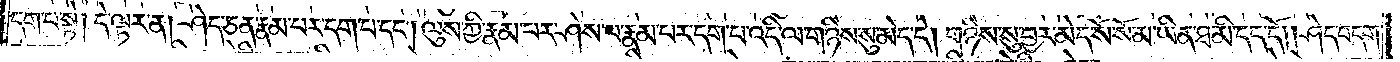དག་པ་སྟེ། དེ་ལྟར་ན། ཤེད་ཅན་རྣམ་པར་དག་པ་དང༌། ལུས་ཀྱི་རྣམ་པར་ཤེས་པ་རྣམ་པར་དག་པ་འདི་ལ་གཉིས་སུ་མེད་དེ། གཉིས་སུ་བྱར་མེད་སོ་སོ་མ་ཡིན་ཐ་མི་དད་དོ། །ཤེད་བདག་
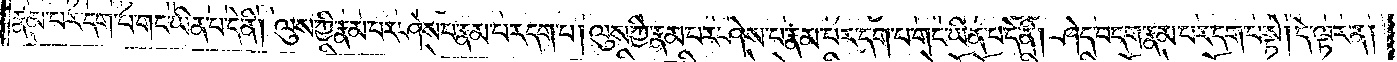རྣམ་པར་དག་པ་གང་ཡིན་པ་དེ་ནི། ལུས་ཀྱི་རྣམ་པར་ཤེས་པ་རྣམ་པར་དག་པ། ལུས་ཀྱི་རྣམ་པར་ཤེས་པ་རྣམ་པར་དག་པ་གང་ཡིན་པ་དེ་ནི། ཤེད་བདག་རྣམ་པར་དག་པ་སྟེ། དེ་ལྟར་ན།
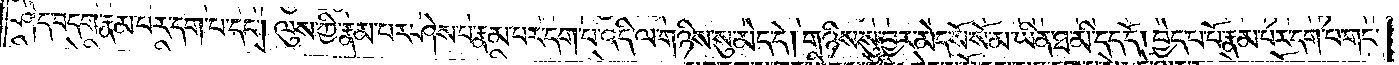ཤེད་བདག་རྣམ་པར་དག་པ་དང༌། ལུས་ཀྱི་རྣམ་པར་ཤེས་པ་རྣམ་པར་དག་པ་འདི་ལ་གཉིས་སུ་མེད་དེ། གཉིས་སུ་བྱར་མེད་སོ་སོ་མ་ཡིན་ཐ་མི་དད་དོ། །བྱེད་པ་པོ་རྣམ་པར་དག་པ་གང་
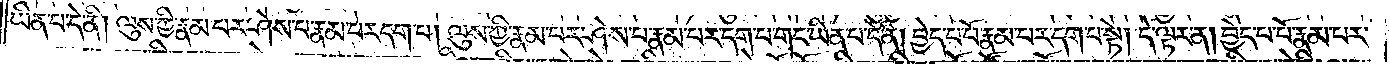ཡིན་པ་དེ་ནི། ལུས་ཀྱི་རྣམ་པར་ཤེས་པ་རྣམ་པར་དག་པ། ལུས་ཀྱི་རྣམ་པར་ཤེས་པ་རྣམ་པར་དག་པ་གང་ཡིན་པ་དེ་ནི། བྱེད་པ་པོ་རྣམ་པར་དག་པ་སྟེ། དེ་ལྟར་ན། བྱེད་པ་པོ་རྣམ་པར་
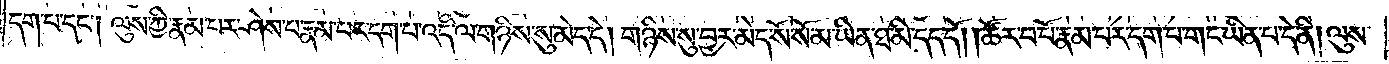དག་པ་དང༌། ལུས་ཀྱི་རྣམ་པར་ཤེས་པ་རྣམ་པར་དག་པ་འདི་ལ་གཉིས་སུ་མེད་དེ། གཉིས་སུ་བྱར་མེད་སོ་སོ་མ་ཡིན་ཐ་མི་དད་དོ། །ཚོར་བ་པོ་རྣམ་པར་དག་པ་གང་ཡིན་པ་དེ་ནི། ལུས་
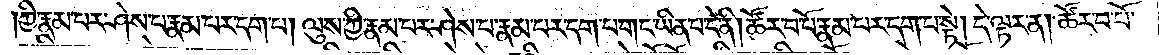ཀྱི་རྣམ་པར་ཤེས་པ་རྣམ་པར་དག་པ། ལུས་ཀྱི་རྣམ་པར་ཤེས་པ་རྣམ་པར་དག་པ་གང་ཡིན་པ་དེ་ནི། ཚོར་བ་པོ་རྣམ་པར་དག་པ་སྟེ། དེ་ལྟར་ན། ཚོར་བ་པོ་
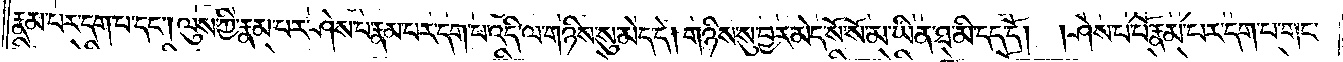རྣམ་པར་དག་པ་དང༌། ལུས་ཀྱི་རྣམ་པར་ཤེས་པ་རྣམ་པར་དག་པ་འདི་ལ་གཉིས་སུ་མེད་དེ། གཉིས་སུ་བྱར་མེད་སོ་སོ་མ་ཡིན་ཐ་མི་དད་དོ། །ཤེས་པ་པོ་རྣམ་པར་དག་པ་གང་
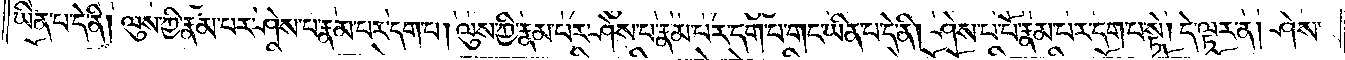ཡིན་པ་དེ་ནི། ལུས་ཀྱི་རྣམ་པར་ཤེས་པ་རྣམ་པར་དག་པ། ལུས་ཀྱི་རྣམ་པར་ཤེས་པ་རྣམ་པར་དག་པ་གང་ཡིན་པ་དེ་ནི། ཤེས་པ་པོ་རྣམ་པར་དག་པ་སྟེ། དེ་ལྟར་ན། ཤེས་
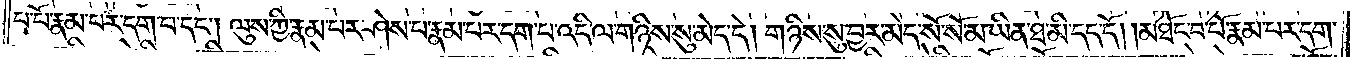པ་པོ་རྣམ་པར་དག་པ་དང༌། ལུས་ཀྱི་རྣམ་པར་ཤེས་པ་རྣམ་པར་དག་པ་འདི་ལ་གཉིས་སུ་མེད་དེ། གཉིས་སུ་བྱར་མེད་སོ་སོ་མ་ཡིན་ཐ་མི་དད་དོ། །མཐོང་བ་པོ་རྣམ་པར་དག་
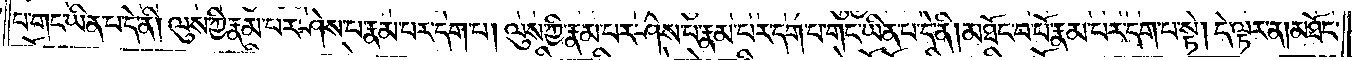པ་གང་ཡིན་པ་དེ་ནི། ལུས་ཀྱི་རྣམ་པར་ཤེས་པ་རྣམ་པར་དག་པ། ལུས་ཀྱི་རྣམ་པར་ཤེས་པ་རྣམ་པར་དག་པ་གང་ཡིན་པ་དེ་ནི། མཐོང་བ་པོ་རྣམ་པར་དག་པ་སྟེ། དེ་ལྟར་ན། མཐོང་
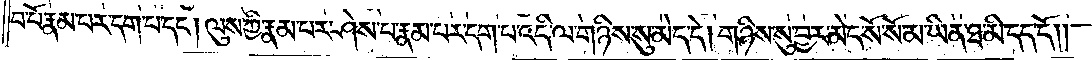བ་པོ་རྣམ་པར་དག་པ་དང༌། ལུས་ཀྱི་རྣམ་པར་ཤེས་པ་རྣམ་པར་དག་པ་འདི་ལ་གཉིས་སུ་མེད་དེ། གཉིས་སུ་བྱར་མེད་སོ་སོ་མ་ཡིན་ཐ་མི་དད་དོ༎
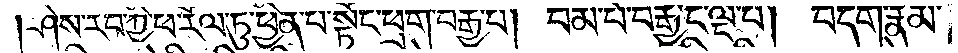ཤེས་རབ་ཀྱི་ཕ་རོལ་ཏུ་ཕྱིན་པ་སྟོང་ཕྲག་བརྒྱ་པ། །བམ་པོ་བརྒྱ་ང་ལྔ་པ། བདག་རྣམ་
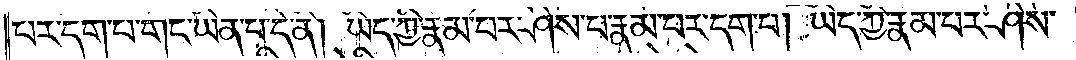པར་དག་པ་གང་ཡིན་པ་དེ་ནི། ཡིད་ཀྱི་རྣམ་པར་ཤེས་པ་རྣམ་པར་དག་པ། ཡིད་ཀྱི་རྣམ་པར་ཤེས་
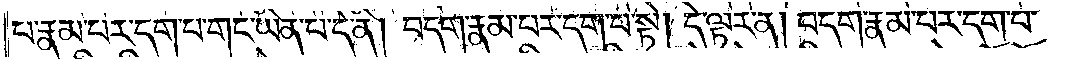པ་རྣམ་པར་དག་པ་གང་ཡིན་པ་དེ་ནི། བདག་རྣམ་པར་དག་པ་སྟེ། དེ་ལྟར་ན། བདག་རྣམ་པར་དག་པ་
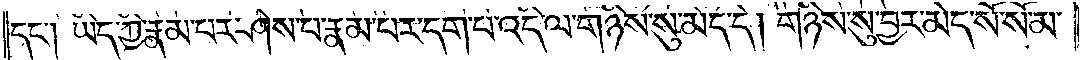དང༌། ཡིད་ཀྱི་རྣམ་པར་ཤེས་པ་རྣམ་པར་དག་པ་འདི་ལ་གཉིས་སུ་མེད་དེ། གཉིས་སུ་བྱར་མེད་སོ་སོ་མ་
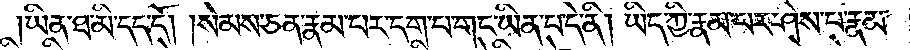ཡིན་ཐ་མི་དད་དོ། །སེམས་ཅན་རྣམ་པར་དག་པ་གང་ཡིན་པ་དེ་ནི། ཡིད་ཀྱི་རྣམ་པར་ཤེས་པ་རྣམ་
